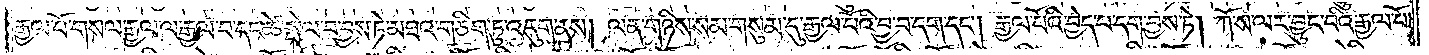རྒྱལ་པོ་གསལ་རྒྱལ་ལ་རྒྱལ་བ་དང་ཚེ་སྤེལ་བ་བྱས་ཏེ་མཐའ་གཅིག་ཏུ་འདུག་ནས། ལན་གཉིས་སམ་གསུམ་དུ་རྒྱལ་པོའི་བྱ་བ་དག་དང༌། རྒྱལ་པོའི་བྱེད་པ་དག་བྱས་ཏེ། ཀོ་ས་ལར་བྱུང་བའི་རྒྱལ་པོ་
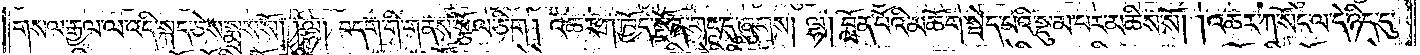གསལ་རྒྱལ་ལ་འདི་སྐད་ཅེས་སྨྲས་སོ། །ལྷ། བདག་གི་གནས་སྩོལ་ཅིག ། འཆར་ཀ་ཁྱོད་སྔོན་གང་དུ་ཞུགས། ལྷ། བློན་པོའི་མཆོག་སྤེད་པའི་སྡུམ་པར་མཆིས་སོ། །འཆར་ཀ་སོང་ལ་དེ་ཉིད་དུ་
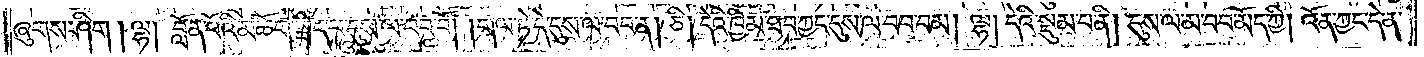ཞུགས་ཤིག །ལྷ། བློན་པོའི་མཆོག་སྦེད་པ་དུས་ལ་བབ་པོ། །གལ་ཏེ་དེ་དུས་ལ་བབ་ན། ཅི། དེའི་ཁྱིམ་ཐབ་ཀྱང་དུས་ལ་བབ་བམ། ལྷ། དེའི་སྡུམ་པ་ནི། དུས་ལ་མ་བབ་མོད་ཀྱི། འོན་ཀྱང་དེ་ན་
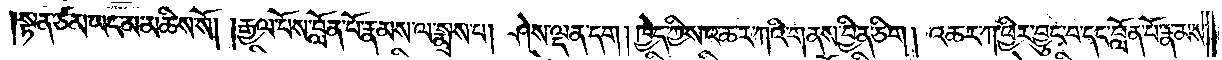སྟན་ཙམ་ཡང་མ་མཆིས་སོ། །རྒྱལ་པོས་བློན་པོ་རྣམས་ལ་སྨྲས་པ། ཤེས་ལྡན་དག །ཁྱེད་ཀྱིས་འཆར་ཀའི་གནས་བྱིན་ཅིག ། འཆར་ཀ་ཕྱིར་བྱུང་བ་དང་བློན་པོ་རྣམས་
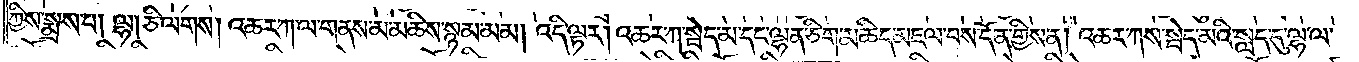ཀྱིས་སྨྲས་པ། ལྷ།ཅི་ལགས། འཆར་ཀ་ལ་གནས་མ་མཆིས་སྙམ་མམ། འདི་ལྟར། འཆར་ཀ་སྦེད་མ་དང་ལྷན་ཅིག་མཆིད་མཇལ་བས་དོན་གྱིས་ན། འཆར་ཀས་སྦེད་མའི་སླད་དུ་ལྷ་ལ་
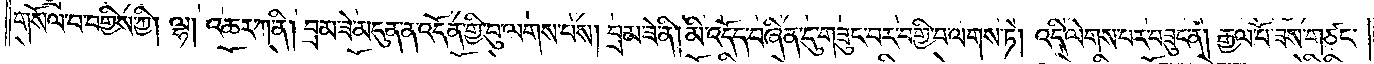གསོལ་བ་བགྱིས་ཀྱི། ལྷ། འཆར་ཀ་ནི། བྲམ་ཟེ་མདུན་ན་འདོན་གྱི་བུ་ལགས་པས། བྲམ་ཟེ་ནི། མི་འདོད་བཞིན་དུ་གཟུང་བར་བགྱི་བ་ལགས་ཏེ། འདི་ལེགས་པར་བཟུང་ན། རྒྱལ་པོ་ཟས་གཙང་
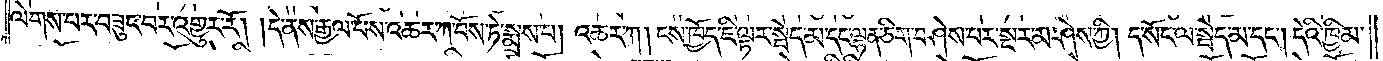ལེགས་པར་བཟུང་བར་འགྱུར་རོ། །དེ་ནས་རྒྱལ་པོས་འཆར་ཀ་བོས་ཏེ་སྨྲས་པ། འཆར་ཀ། ངས་ཁྱོད་ཇི་ལྟར་སྦེད་མ་དང་ལྷན་ཅིག་བཤེས་པར་སྔར་མ་ཤེས་ཀྱི། ད་སོང་ལ་སྦེད་མ་དང༌། དེའི་ཁྱིམ་
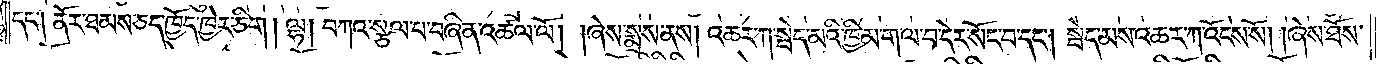དང༌། ནོར་ཐམས་ཅད་ཁྱོད་ཁྱེར་ཅིག །ལྷ། བཀའ་སྩལ་པ་བཞིན་འཚལ་ལོ། །ཞེས་སྨྲས་ནས། འཆར་ཀ་སྦེད་མའི་ཁྱིམ་ག་ལ་བ་དེར་སོང་བ་དང༌། སྦེད་མས་འཆར་ཀ་འོངས་སོ། །ཞེས་ཐོས་
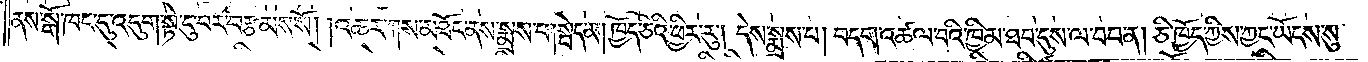ནས་སྒོ་ཁང་དུ་འདུག་སྟེ་ངུ་བར་བརྩམས་སོ། །འཆར་ཀས་མཐོང་ནས་སྨྲས་པ། སྦེད་མ། ཁྱོད་ཅིའི་ཕྱིར་རུ། དེས་སྨྲས་པ། བདག་འཚལ་བའི་ཁྱིམ་ཐབ་དུས་ལ་བབ་ན། ཅི་ཁྱོད་ཀྱིས་ཀྱང་ཡོངས་སུ་
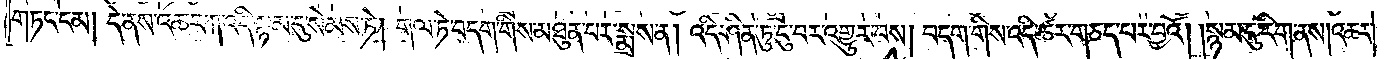གཏང་ངམ། དེ་ནས་འཆར་ཀ་འདི་སྙམ་དུ་སེམས་ཏེ། གལ་ཏེ་བདག་གིས་མཐུན་པར་སྨྲ་ན། འདི་ཤིན་ཏུ་ངུ་བར་འགྱུར་བས། བདག་གིས་འདི་ཚར་གཅད་པར་བྱའོ། །སྙམ་དུ་རིག་ནས།འཆར་
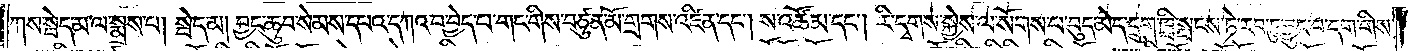ཀས་སྦེད་མ་ལ་སྨྲས་པ། སྦེད་མ། བྱང་ཆུབ་སེམས་དཔའ་དཀའ་བ་བྱེད་པ་གང་གིས་བཙུན་མོ་གྲགས་འཛིན་དང༌། ས་འཚོམ་དང༌། རི་དྭགས་སྐྱེས་ལ་སོགས་པ་བུད་མེད་དྲུག་ཁྲི་སྤངས་ཏེ་རབ་ཏུ་བྱུང་བ་དག་གིས་
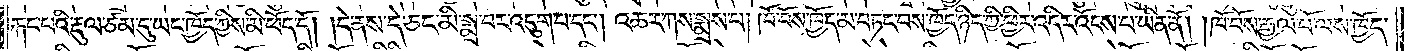རྐང་པའི་རྡུལ་ཙམ་དུ་ཡང་ཁྱོད་ཀྱིས་མི་ཕོད་དོ། །དེ་ནས་དེ་ཅང་མི་སྨྲ་བར་འདུག་པ་དང༌། འཆར་ཀས་སྨྲས་པ། ཁོ་བོས་ཁྱོད་མ་བཏང་བས་ཁྱོད་ཉིད་ཀྱི་ཕྱིར་འདིར་འོངས་པ་ཡིན་ནོ། །ཁོ་བོས་རྒྱལ་པོ་ལས་ཁྱོད་
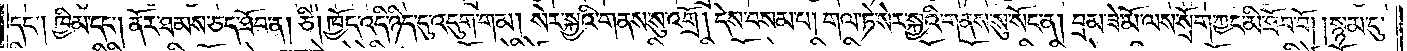དང༌། ཁྱིམ་དང༌། ནོར་ཐམས་ཅད་ཐོབ་ན། ཅི། ཁྱོད་འདི་ཉིད་དུ་འདུག་གམ། སེར་སྐྱའི་གནས་སུ་འགྲོ། དེས་བསམ་པ། གལ་ཏེ་སེར་སྐྱའི་གནས་སུ་སོང་ན། བྲམ་ཟེ་མོ་ལས་སྲོག་ཀྱང་མི་ཐོབ་བོ། །སྙམ་དུ་
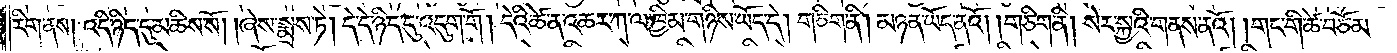རིག་ནས། འདི་ཉིད་དུ་མཆིས་སོ། །ཞེས་སྨྲས་ཏེ། དེ་དེ་ཉིད་དུ་འདུག་གོ། དེའི་ཚེ་ན་འཆར་ཀ་ལ་ཁྱིམ་གཉིས་ཡོད་དེ། གཅིག་ནི། མཉན་ཡོད་ནའོ། །གཅིག་ནི། སེར་སྐྱའི་གནས་ནའོ། །གང་གི་ཚེ་བཅོམ་
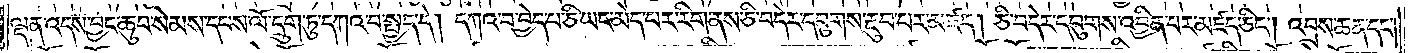ལྡན་འདས་བྱང་ཆུབ་སེམས་དཔས་ལོ་དྲུག་ཏུ་དཀའ་བ་སྤྱད་དེ། དཀའ་བ་བྱེད་པ་ཅི་ཡང་མེད་པར་རིག་ནས་ཅི་བདེར་དབུགས་རྔུབ་པར་མཛད། ཅི་བདེར་དབུགས་འབྱིན་པར་མཛད་ཅིང༌། འབྲས་ཆན་དང༌།
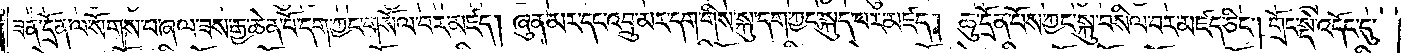ཟན་དྲོན་ལ་སོགས་པ་ཞལ་ཟས་རྒྱ་ཆེན་པོ་དག་ཀྱང་གསོལ་བར་མཛད། ཞུན་མར་དང་འབྲུ་མར་དག་གིས་སྐུ་དག་ཀྱང་སྐུད་པར་མཛད། ཆུ་དྲོན་པོས་ཀྱང་སྐུ་བསིལ་བར་མཛད་ཅིང༌། གྲོང་སྡེ་འདོང་དུ་
